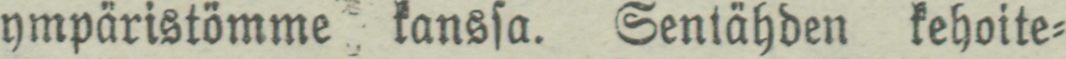ympäristömme kanssa. Sentähden kehoite-
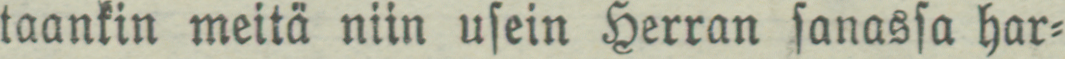taankin meitä niin usein Herran sanassa har-
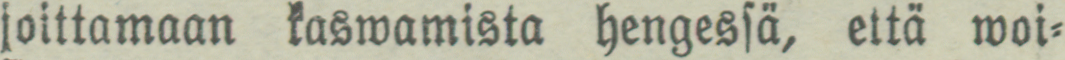joittamaan kaswamista hengessä, että woi-
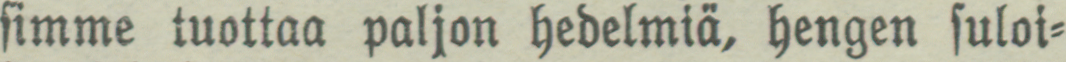simme tuottaa paljon hedelmiä, hengen suloi-
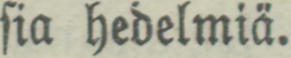sia hedelmiä.
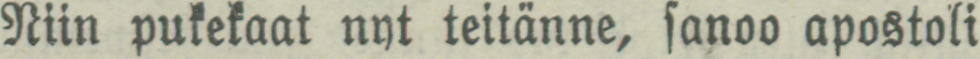Niin pukekaat nyt teitänne, sanoo apostoli
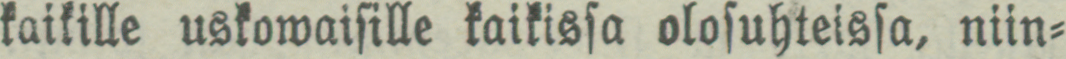kaikille uskowaisille kaikissa olosuhteissa, niin-
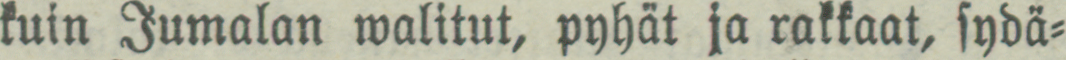kuin Jumalan walitut, pyhät ja rakkaat, sydä-
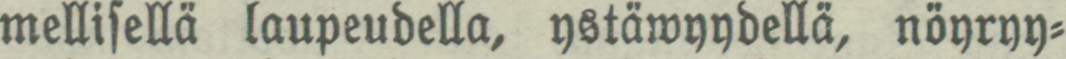mellisellä laupeudella, ystäwyydellä, nöyryy-
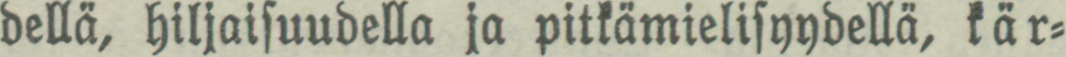dellä, hiljaisuudella ja pitkämielisyydellä, kär-
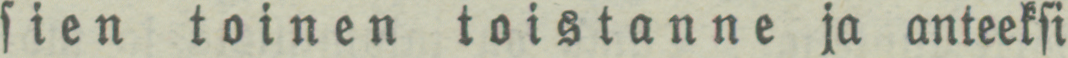sien toinen toistanne ja anteeksi
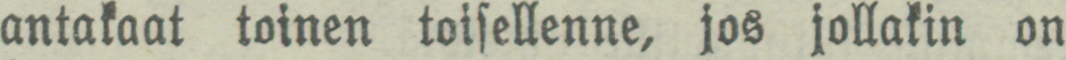antakaat toinen toisellenne, jos jollakin on
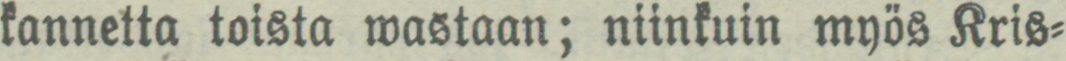kannetta toista wastaan; niinkuin myös Kris-
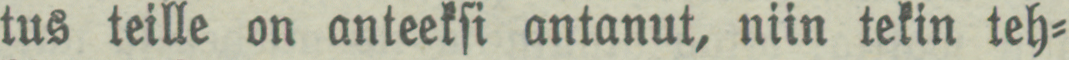tus teille on anteeksi antanut, niin tekin teh-
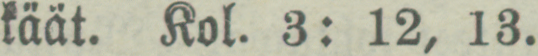käät. Kol. 3: 12, 13.
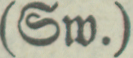(Sw.)
